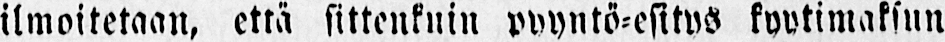ilmoitetaan, että sittenkuin pyyntö-esitys kyytimaksun
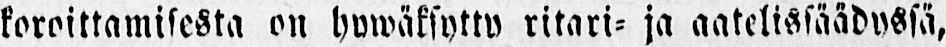koroittamisesta on hywäksytty ritari- ja aatelissäädyssä,
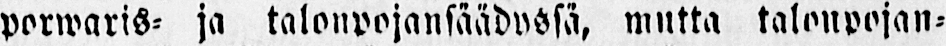porwaris- ja talonpojansäädyssä, mutta talonpojan-
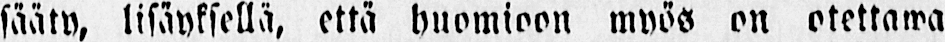sääty, lisäyksellä, että huomioon myös on otettawa
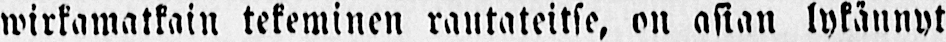wirkamatkain tekeminen rautateitse, on asian lykännyt
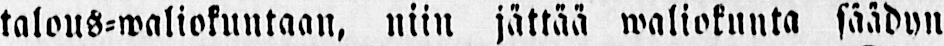talous-waliokuntaan, niin jättää waliokunta säädyn
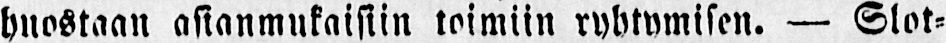huostaan asianmukaisiin toimiin ryhtymisen. — Slot-
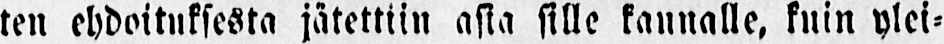ten ehdoituksesta jätettiin asia sille kannalle, kuin ylei-
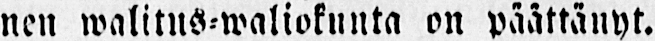nen walitus-waliokunta on päättänyt.
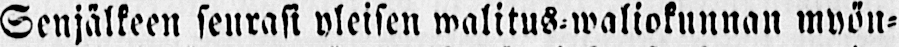Senjälkeen seurasi yleisen walitus-waliokunnan myön-
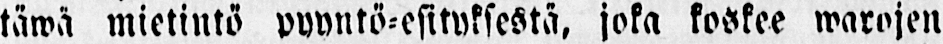täwä mietintö pyyntö-esityksestä, joka koskee warojen
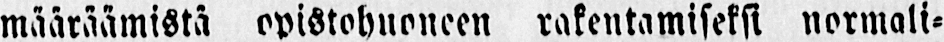määräämistä opistohuoneen rakentamiseksi normali-
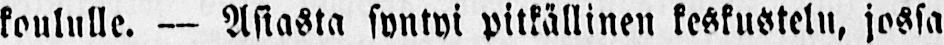koululle. — Asiasta syntyi pitkällinen keskustelu, jossa
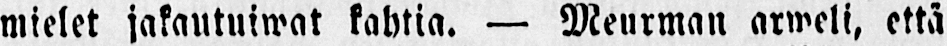mielet jakautuiwat kahtia. — Meurman arweli, että
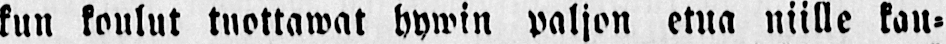kun koulut tuottawat hywin paljon etua niille kau-
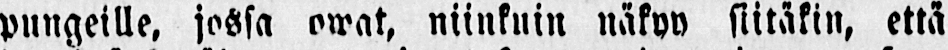pungeille, jossa owat, niinkuin näkyy siitäkin, että
